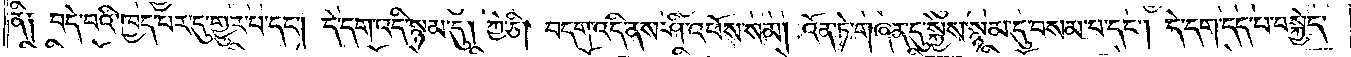ནི༑ བདེ་བའི་ཁྱད་པར་དུ་གྱུར་པ་དང༌། དེ་དག་འདི་སྙམ་དུ། ཀྱེ་ཅི། བདག་འདི་ནས་ཤི་འཕོས་སམ། འོན་ཏེ་གཞན་དུ་སྐྱེས་སྙམ་དུ་བསམ་པ་དང༌། དེ་དག་དད་པ་བསྐྱེད་
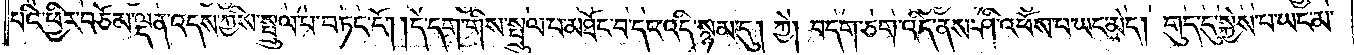པའི་ཕྱིར་བཅོམ་ལྡན་འདས་ཀྱིས་སྤྲུལ་པ་བཏང་ངོ༌། །དེ་དག་གིས་སྤྲུལ་པ་མཐོང་བ་དང་འདི་སྙམ་དུ། ཀྱེ། བདག་ཅག་འདི་ནས་ཤི་འཕོས་པ་ཡང་མེད། གུད་དུ་སྐྱེས་པ་ཡང་མ་
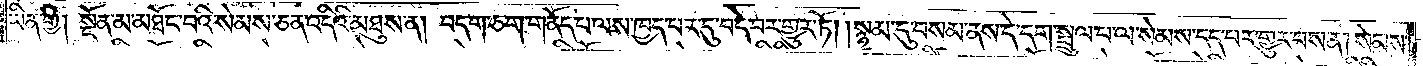ཡིན་གྱི། སྔོན་མ་མཐོང་བའི་སེམས་ཅན་འདིའི་མཐུས་ན། བདག་ཅག་གནོད་པ་ལས་ཁྱད་པར་དུ་བདེ་བར་གྱུར་ཏོ། །སྙམ་དུ་བསམ་ནས་དེ་དག་སྤྲུལ་པ་ལ་སེམས་དད་པར་གྱུར་པས་ན། སེམས་
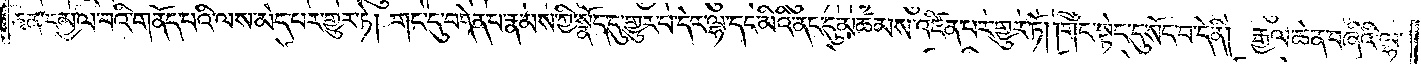ཅན་དམྱལ་བའི་གནོད་པའི་ལས་མེད་པར་གྱུར་ཏེ། གང་དུ་བདེན་པ་རྣམས་ཀྱི་སྣོད་དུ་གྱུར་པ་དེར་ལྷ་དང་མིའི་ནང་དུ་མཚམས་འཛིན་པར་གྱུར་ཏོ། །གང་སྟེང་དུ་སོང་བ་དེ་ནི། རྒྱལ་ཆེན་བཞིའི་ལྷ་
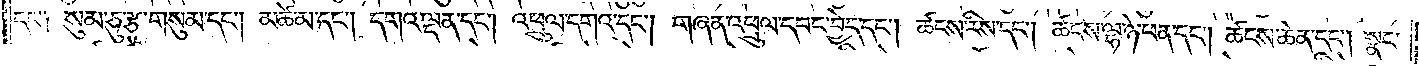དང་༑ སུམ་ཅུ་རྩ་གསུམ་དང༌། མཚེ་མ་དང༌། དགའ་ལྡན་དང༌། འཕྲུལ་དགའ་དང༌། གཞན་འཕྲུལ་དབང་བྱེད་དང༌། ཚངས་རིས་དང༌། ཚངས་ལྷ་ཉེ་ཕན་དང༌། ཚངས་ཆེན་དང༌། སྣང་
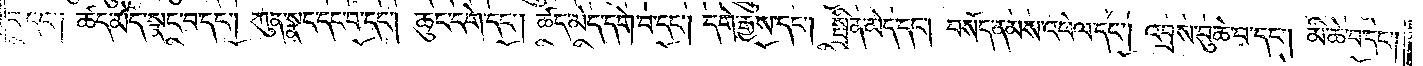བ་དང༌། ཚད་མེད་སྣང་བ་དང༌། ཀུན་སྣང་དང་བ་དང༌། ཆུང་དགེ་དང༌། ཚད་མེད་དགེ་བ་དང༌། དགེ་རྒྱས་དང༌། སྤྲིན་མེད་དང༌། བསོད་ནམས་འཕེལ་དང༌། འབྲས་བུ་ཆེ་བ་དང༌། མི་ཆེ་བ་དང༌།
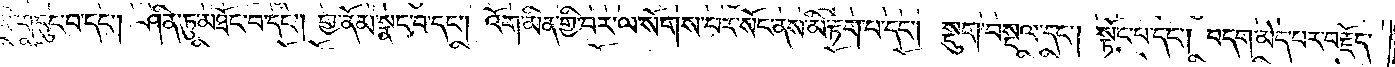མི་གདུང་བ་དང༌། ཤིན་ཏུ་མཐོང་བ་དང༌། གྱ་ནོམ་སྣང་བ་དང༌། འོག་མིན་གྱི་བར་ལ་སོགས་པར་སོང་ནས་མི་རྟག་པ་དང༌། སྡུག་བསྔལ་དང༌། སྟོང་པ་དང༌། བདག་མེད་པར་བརྗོད་
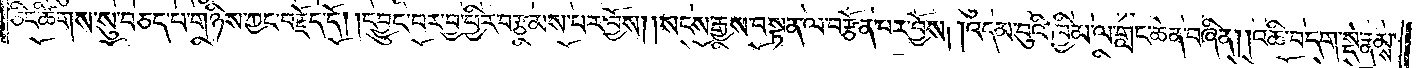ཅིང་ཚིགས་སུ་བཅད་པ་གཉིས་ཀྱང་བརྗོད་དོ། །དབྱུང་བར་བྱ་ཕྱིར་བརྩམས་པར་བྱོས། །སངས་རྒྱས་བསྟན་ལ་བརྩོན་པར་བྱོས། འདམ་བུའི་ཁྱིམ་ལ་གླང་ཆེན་བཞིན། །འཆི་བདག་སྡེ་རྣམས་
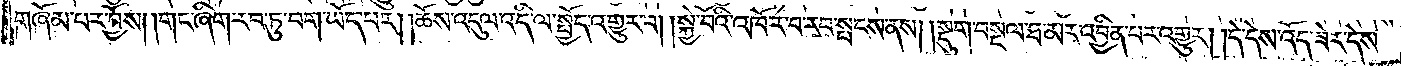གཞོམ་པར་བྱོས། །གང་ཞིག་རབ་ཏུ་བག་ཡོད་པར། །ཆོས་འདུལ་འདི་ལ་སྤྱོད་འགྱུར་བ། །སྐྱེ་བོའི་འཁོར་བ་རབ་སྤངས་ནས། །སྡུག་བསྔལ་ཐ་མར་འབྱིན་པར་འགྱུར། །དེ་དེས་འོད་ཟེར་དེས་
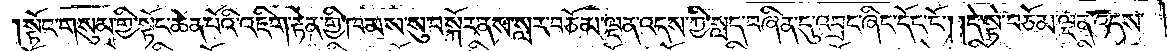སྟོང་གསུམ་གྱི་སྟོང་ཆེན་པོའི་འཇིག་རྟེན་གྱི་ཁམས་སུ་བསྐོར་ནས་སླར་བཅོམ་ལྡན་འདས་ཀྱི་སླད་བཞིན་དུ་འབྲང་ཞིང་དོང་ངོ༌། །དེ་སྟེ་བཅོམ་ལྡན་འདས་
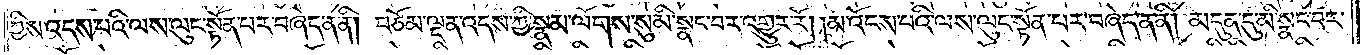ཀྱིས་འདས་པའི་ལས་ལུང་སྟོན་པར་བཞེད་ན་ནི། བཅོམ་ལྡན་འདས་ཀྱི་སྣམ་ལོགས་སུ་མི་སྣང་བར་འགྱུར་རོ། །མ་འོངས་པའི་ལས་ལུང་སྟོན་པར་བཞེད་ན་ནི། མདུན་དུ་མི་སྣང་བར་
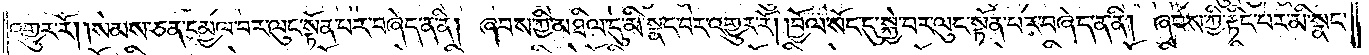འགྱུར་རོ། །སེམས་ཅན་དམྱལ་བར་ལུང་སྟོན་པར་བཞེད་ན་ནི། ཞབས་ཀྱི་མཐིལ་དུ་མི་སྣང་བར་འགྱུར་རོ། །བྱོལ་སོང་དུ་སྐྱེ་བར་ལུང་སྟོན་པར་བཞེད་ན་ནི། ཞབས་ཀྱི་རྟིང་པར་མི་སྣང་
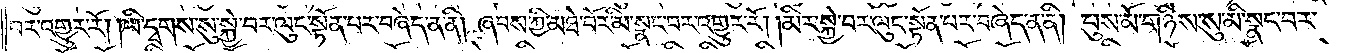བར་འགྱུར་རོ། །ཡི་དྭགས་སུ་སྐྱེ་བར་ལུང་སྟོན་པར་བཞེད་ན་ནི། ཞབས་ཀྱི་མཐེ་བོར་མི་སྣང་བར་འགྱུར་རོ། །མིར་སྐྱེ་བར་ལུང་སྟོན་པར་བཞེད་ན་ནི། བུས་མོ་གཉིས་སུ་མི་སྣང་བར་
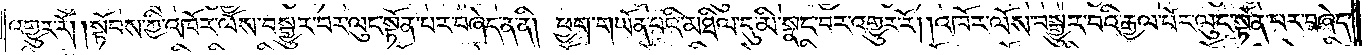འགྱུར་རོ། །སྟོབས་ཀྱི་འཁོར་ལོས་བསྒྱུར་བར་ལུང་སྟོན་པར་བཞེད་ན་ནི། ཕྱག་གཡོན་པའི་མཐིལ་དུ་མི་སྣང་བར་འགྱུར་རོ། །འཁོར་ལོས་བསྒྱུར་བའི་རྒྱལ་པོར་ལུང་སྟོན་པར་བཞེད་
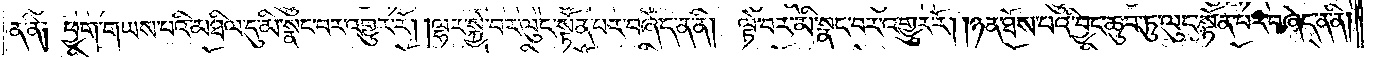ན་ནི། ཕྱག་གཡས་པའི་མཐིལ་དུ་མི་སྣང་བར་འགྱུར་རོ། །ལྷར་སྐྱེ་བར་ལུང་སྟོན་པར་བཞེད་ན་ནི། ལྟེ་བར་མི་སྣང་བར་འགྱུར་རོ། །ཉན་ཐོས་པའི་བྱང་ཆུབ་ཏུ་ལུང་སྟོན་པར་བཞེད་ན་ནི།
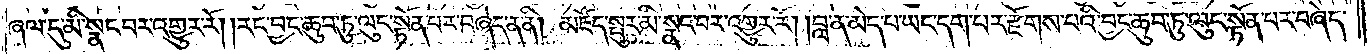ཞལ་དུ་མི་སྣང་བར་འགྱུར་རོ། །རང་བྱང་ཆུབ་ཏུ་ལུང་སྟོན་པར་བཞེད་ན་ནི། མཛོད་སྤུར་མི་སྣང་བར་འགྱུར་རོ། །བླ་ན་མེད་པ་ཡང་དག་པར་རྫོགས་པའི་བྱང་ཆུབ་ཏུ་ལུང་སྟོན་པར་བཞེད་
